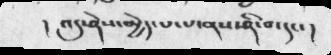།    འདུ་ཤེས་མྱེད་པ་པ་ནས་ཤི་བ་དང་།
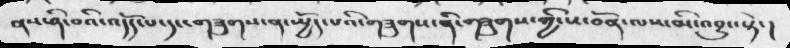ནས་ཤི་བའི་འདོད་པ་དང་གཟུགས་ན་ཡྱོད་པའི་གཟུགས་ནི་གཟུགས་གྱི་ས་བོན་ལས་མི་འབྱུང་སྟེ་།
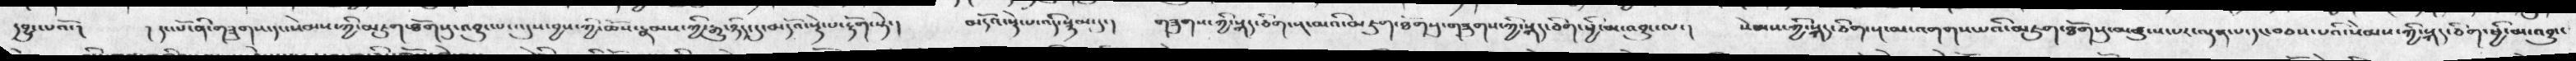དབྱུང་པའོ་།    །  དང་པོ་ནི་གཟུགས་དང་སེམས་ཀྱི་མཇུག་ཐོགསུ་འབྱུང་ཡང་འདུས་བྱས་ཀྱི་ཆོས་རྣམས་ཀྱི་རྒྱུ་ཉིད་དུ་མདོའ་སྡེ་པ་རྟོག་སྟེ་།   མདོའ་སྡེ་པ་འདི་སྙམ་དུ་།   གཟུགས་ཀྱི་སྐད་ཅིག་སྔ་མའི་མཇུག་ཐོགསུ་གཟུགས་ཀྱི་སྐད་ཅིག་ཕྱི་མ་འབྱུང་ལ་།   སེམས་ཀྱི་སྐད་ཅིག་སྔ་མ་འགགས་པའི་མཇུག་ཐོགསུ་མཚུངས་པར་ལྡན་པ་དང་བཅས་པའི་སེམས་ཀྱི་སྐད་ཅིག་ཕྱི་མ་འབྱུང་
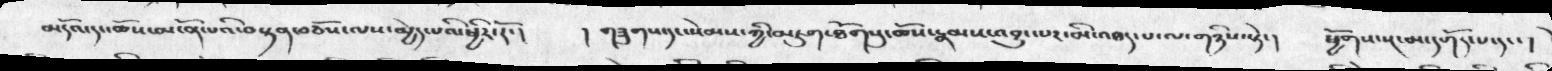མདོའ་དང་ཆོས་མངོན་པའི་བསྟན་བཅོས་ལས་མྱེད་པའི་ཕྱིར་རོ་།    ། གཟུགས་དང་སེམས་ཀྱི་འཇུག་ཐོགསུ་ཆོས་རྣམས་འབྱུང་པར་མི་འཐད་པ་ལ་གཉིས་སྟེ་།   ཕྱོགས་སྔ་མ་དགོད་པ་དང་།
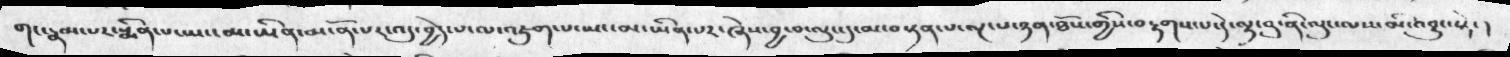གང་རྣམ་པར་སྨིན་པ་ཡང་མ་ཡིན་མངོན་པར་འདུ་བྱེད་པ་ལ་འཇུག་པ་ཡང་མ་ཡིན་པར་ཞེས་བྱ་བ་ལུང་དུ་མ་བསྟན་པ་ལྔ་པ་ཉན་ཐོས་གྱིས་བརྟགས་པ་དེ་ལྟ་བུ་ནི་ལུང་ལས་མི་འབྱུང་སྟེ་།
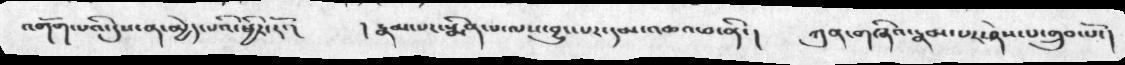འགོག་པའི་དུས་ན་མྱེད་པའི་ཕྱིར་རོ་།    ། རྣམ་པར་སྨིན་པ་ལས་བྱུང་པར་དམ་འཆའ་བ་ནི་།    ཀུན་གཞིའ་རྣམ་པར་ཤེས་པ་གྲུབ་པོ་།
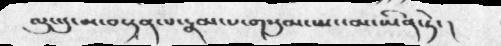ལུང་དུ་མ་བསྟན་པ་རྣམ་པ་གསུམ་ཡང་མ་ཡིན་ཏེ་།
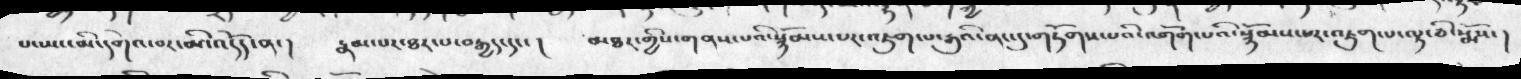པ་ཡང་མི་དགེའ་བར་མི་འདོད་ན་།  རྣམ་པར་ཐར་པ་བརྒྱད་དང་།  མཐར་གྱིས་གནས་པའི་སྙོམས་པར་འཇུག་པ་རྒུའི་ནང་དུ་གཏོགས་པའི་འགོག་པའི་སྙོམས་པར་འཇུག་པ་ལྟ་ཅི་སྨོས་།
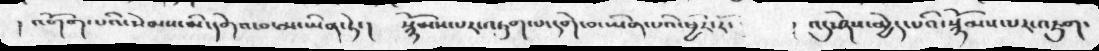། འགོག་པའི་སེམས་མི་དགེའ་བ་མ་ཡིན་ཏེ་།    སྙོམས་པར་འཇུག་པ་དགེ་བ་ཡིན་པའི་ཕྱིར་རོ་།     ། འདུ་ཤེས་མྱེད་པའི་སྙོམས་པར་འཇུག་
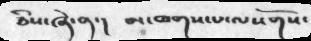ཅིས་ཞེ་ན་།    མ་ཆགས་པ་ལསོགས་
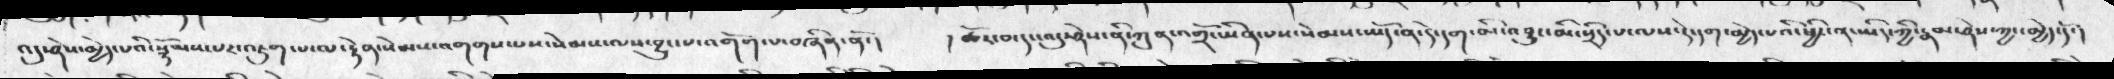འདུ་ཤེས་མྱེད་པའི་སྙོམས་པར་འཇུག་པ་ལ་རྟེན་སེམས་འགགས་པས་སེམས་ལས་བྱུང་པ་འགོག་པ་བཞིན་ནོ་།  ། ཚོར་བ་དང་འདུ་ཤེས་ནི་ཀུན་འགྲོ་ཡིན་པས་སེམས་ཡོད་ན་དེ་དག་མི་འབྱུང་མི་སྲིད་པ་ལས་དེ་དག་མྱེད་པའི་ཕྱིར་ན་ཡིད་ཀྱི་རྣམ་ཤེས་ཀྱང་མྱེད་དོ་།
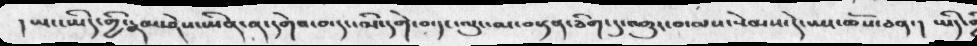། ཡང་ཡིད་གྱི་རྣམ་ཤེས་ཡིན་ན་དགེའ་བ་དང་མི་དགེ་བ་དང་ལུང་མ་བསྟན་ཅིག་དུ་འགྱུར་བ་ལས་སེམས་དེ་ཡང་ཆོས་ཅན་།   ཡིད་གྱི
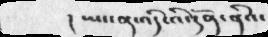།     ཡང་ན་འདི་འི་དོན་ནིའ་
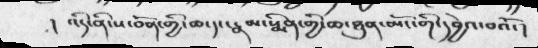། འདི་ནི་ས་བོན་གྱི་ཆ་དང་རྣམ་སྨིན་གྱི་ཆ་ཐུན་མོང་གི་དབྱེའ་བའོ་།
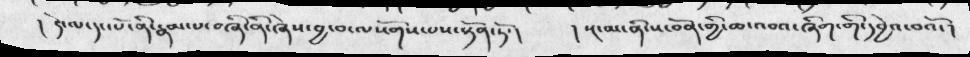། དེ་ལ་དང་པོ་ནི་རྣམ་པ་བཞི་ནི་ཞེས་བྱ་བ་ལསོགས་པས་སྟོན་ཏོ་།  ། སྔ་མ་ནི་ས་བོན་གྱི་ཆ་འབའ་ཞིག་གི་དབྱེའ་བའོ་།
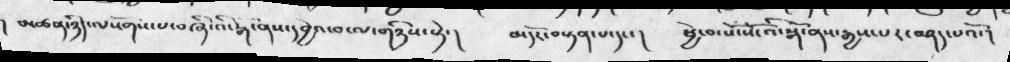།  མཚན་ཉིད་ལསོགས་པ་བཞི་འི་སྒོ་ནས་དབྱེའ་བ་ལ་གཉིས་སྟེ་།    མདོར་བསྟན་པ་དང་།  ཕྱེ་བ་སོ་སོ་འི་སྒོ་ནས་རྒྱས་པར་བཤད་པའོ་།
